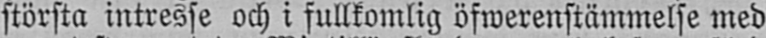största intresfe och i fullkomlig öfwerenstämmelse med
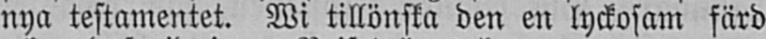nya testamentet. Wi tillönska den en lyckosam färd
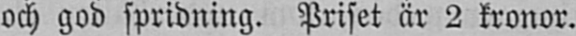och god spridning. Priset är 2 kronor.
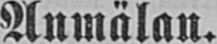Anmälan.
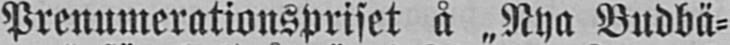Prenumerationspriset å "Nya Budbä-
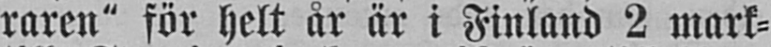raren" för helt år är i Finland 2 mark-
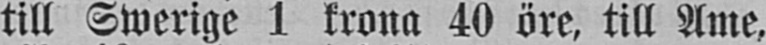till Swerige 1 krona 40 öre, till Ame.
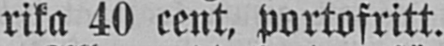rika 40 cent, portofritt.
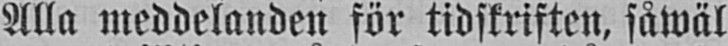Alla meddelanden för tidskriften, såwäl
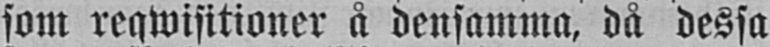som reqwisitioner å densamma, då dessa
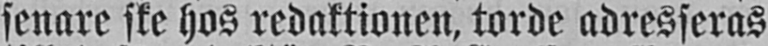senare ske hos redaktionen, torde adresseras
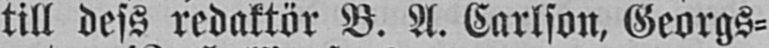till dess redaktör B. A. Carlson, Georgs-
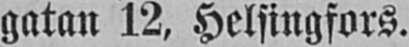gatan 12, Helsingfors.
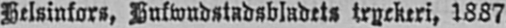Helsingfors, Hufwudstadsbladets tryckeri, 1887.
